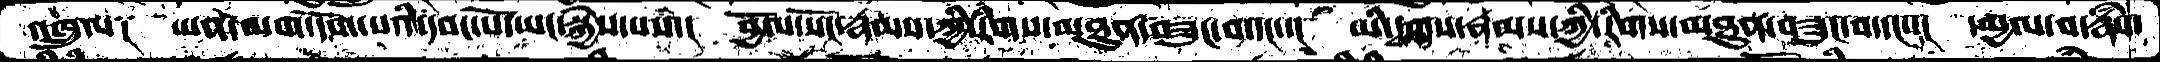འཁྲུལ༑  ཡན་ལག་དོག་པའི་དབང་པོ་ཡང་སྐྱེས་པས་།  བྱོལ་སོང་རྣམས་ཀྱི་རིགས་མཐུན་བཟུང་བ་དང་་་།  ཡི་དྭགས་རྣམས་ཀྱི་རིགས་མཐུན་བཟུང་བ་དང་་།  དམྱལ་བ་རྣཾས་
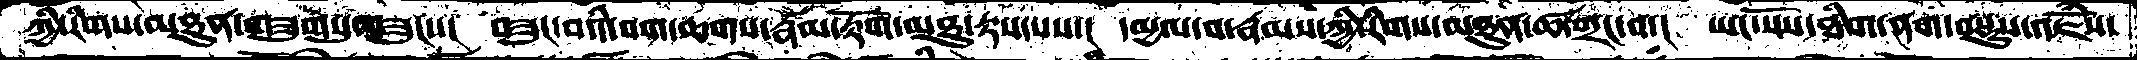ཀྱི་རིགས་མཐུན་གཟུགསུ་བཟུང་་།  བཟུང་བའི་བག་ཆགས་རྣམ་རྟོག་མཐུ་རྟས་པས་།  དམྱལ་བ་རྣམས་ཀྱི་རིགས་མཐུན་ཚ་གྲང་བ་།  ཡང་སོས་ཐིག་ནག་བསྡུས་འཇོཾས་
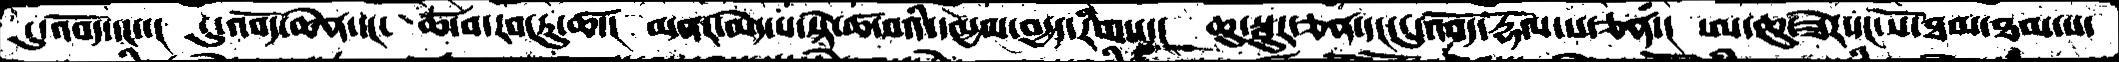ངུ་འབོད་དང་་།  ངུ་འབོད་ཆེན་དང་།  ཚ་བ་རབ་ཏུ་ཚ་།  མནར་མེད་པ་སྟེ་ཚ་བའི་དམྱལ་བདྱད་རིགས་།  ཆུ་སྦུར་ཅན་དང་ངུ་འབོད་རྡོལ་པ་ཅན་།  ཨ་ཆུ་ཟེར་དང་སོ་ཐམ་ཐམ་པ་
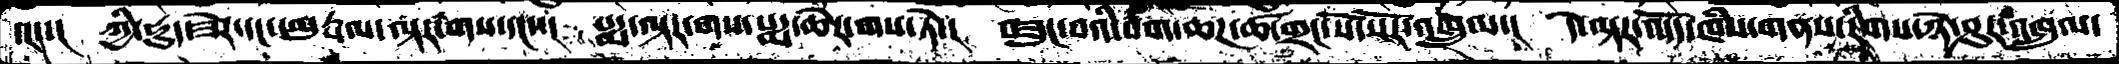དང་་།  ཀྱི་ཧུད་ཟེར་དང་ཨུཏྤལ་ལྟར་གས་དང་་།  པདྨ་ལྟར་གས་པདྨ་ཆེར་གས་ཏེ་།  བཟུང་བའི་བག་ཆཌ་ཚ་གྲང་སོ་སོར་འཁྲུལ་།  དེ་ལྟར་འདོད་ཁཾས་གནས་རིགས་ཉེ་ཤུར་འཁྲུལ་
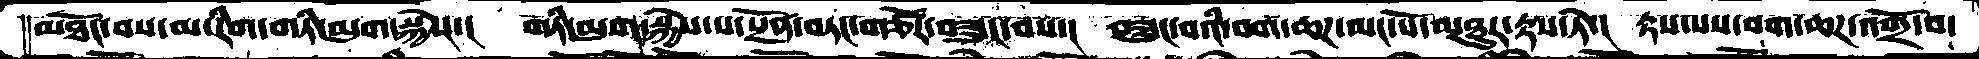མཐོང་བས་མ་རིག་གཏི་མུག་སྐྱེས་།  གཏི་མུག་སྐྱེས་པ་སྔོན་བཏང་གཙོར་བཟུང་བས་།  བཟུང་བའི་བག་ཆཌ་མང་པོ་མཐུར་རྟས་ཏེ་།  རྟས་པས་བག་ཆཌ་འགྲོ་བ་
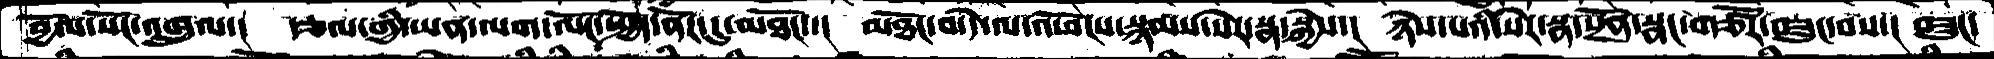བྱོལ་སོང་འཁྲུལ་།  རྩལ་གྱི་ཡན་ལག་ལོང་སྤྱོད་ནོར་དུ་མཐོང་་།  མཐོང་བ་དེ་ལ་འཕོངས་སྙམས་སེར་སྣ་སྐྱེས་།  ཉེས་པའི་སེར་སྣ་སྔོན་སྣང་གཙོར་བཟུང་བས་།  བཟུང་
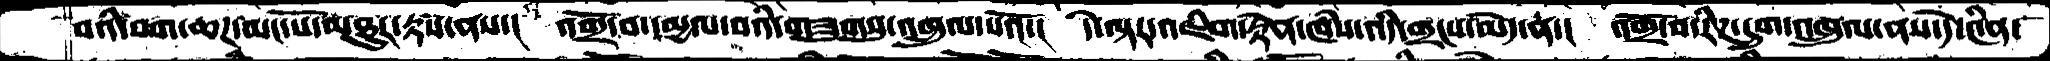བའི་བག་ཆཌ་མང་པོ་མཐུར་རྟས་ནས་།  འགྲོ་བ་དམྱལ་བའི་གཟུགསུ་འཁྲུལ་པའོ་།  དེ་ལྟར་འཇིག་རྟེན་ཁཾས་འདི་གྲངས་མེད་ན་།  འགྲོ་བ་རིཌ་དྲུག་འཁྲུལ་ནས་དེ་༤ིན་
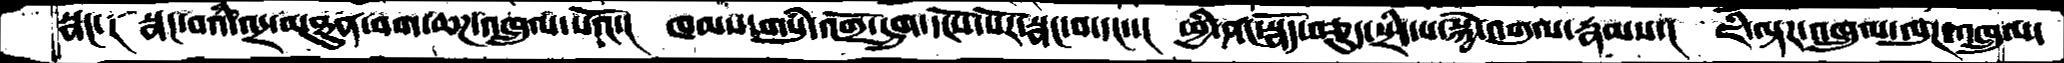སྣང་།  སྣང་བའི་འདྲ་མཐུན་བག་ཆཌ་འཁྲུལ་པའོ་།  ཁམས་གསུཾ་འགྲོ་དྲུག་དངོས་པོར་སྣང་བ་དང་་།  ཕྱི་ནང་སྣོད་བཅུད་སྲིད་པ་སྐྱེ་འགུལ་རྣམས་།  ཇི་ལྟར་འཁྲུལ་ལུཌ་འཁྲུལ་
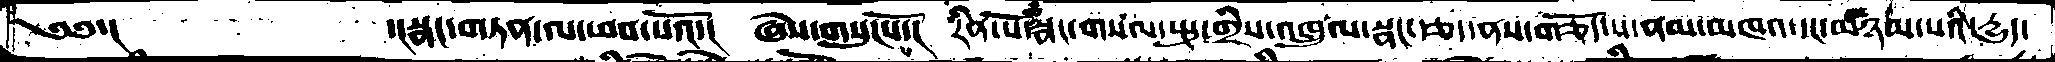༄༅་།        ་།སྣང་གཏན་ལ་ཕབ་པའོ་།  ཞེས་གསུངསོ་།  རིན་པོ་སྣང་གསལ་སྤུ་གྲིས་འཁྲུལ་སྣང་རྩད་ནས་གཅོད་པ་ནམ་མཁའ་དང་མཉམ་པའི་དྱུད་
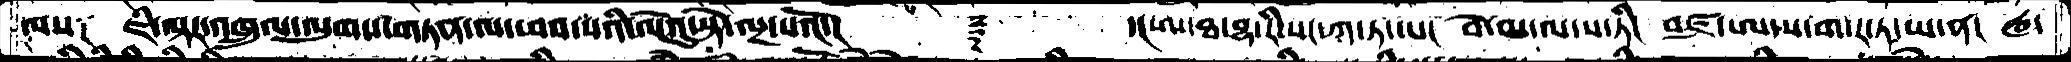པས༑  ཇི་ལྟར་འཁྲུལ་ལུགས་གཏན་ལ་ཕབ་པའི་ལེའུ་སྟེ་ལྔ་པའོ་།    ࿑      ་།ཨ་ཐ་བྷ་རི་སང་ཀ་ཏ་པ།  བེ་མ་ལ་པ་ཏཱི།  བཛྲ་ཨ་ས་ག་ར་ཏ་ཡ་ན།  ཝ་
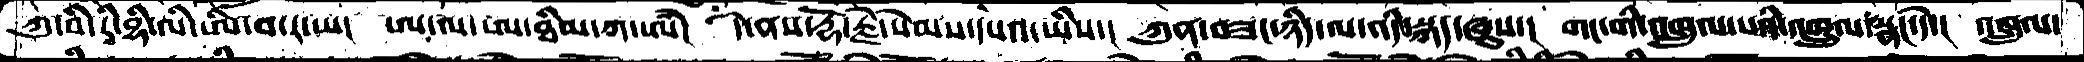ཀུ་བི་རི་བྷི་ལི་ཨི་བ་ར་ཡ།  ཨ་ལ་ཨ་ཐིམ་ཀ་ཨཾ།  དེ་ནས་རྡོ་རྗེ་སེམས་དཔའ་ཡིས་།  ཀུན་བཟང་ཉིད་ལ་འདི་སྐད་ཞུས་།  གང་གི་འཁྲུལ་པའི་འཁྲུལ་སྣང་དེ་།  འཁྲུལ་
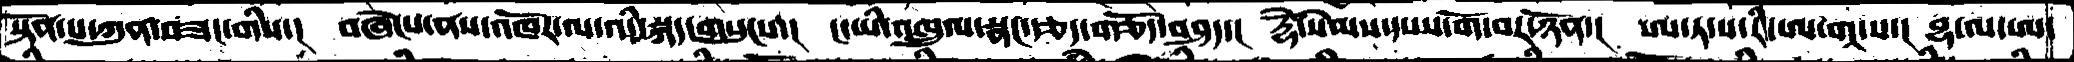སྟོན་པ་ཀུན་བཟང་གིས་།  བཞེངས་ནས་འཁོར་ལ་འདི་སྐད་གསུངས་།  ང་ཡི་འཁྲུལ་སྣང་རྩད་གཅོད་བཤད་།  རྡོེ་སེམས་དཔས་གོ་བར་ཉོན་།  ཨ་ཏ་པ་རི་ཨ་གཱ་ས་། བྷ་ལ་ཨ་
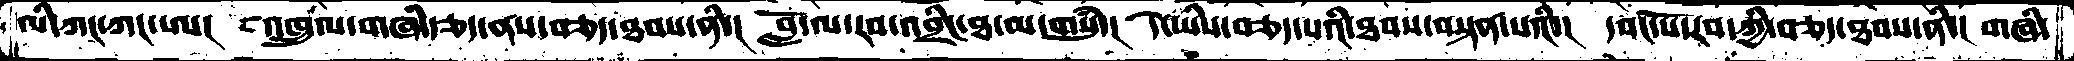ལི་ཀང་ཀང་ཨ་།  འཁྲུལ་གཞི་རྩད་ནས་བཅད་ཐབས་ནི་།  བློ་ལ་རབ་འབྲིང་ཐ་མ་གསུཾ་།  དེ་ཡིས་བཅད་པའི་ཐབས་བསྟན་པའི་།  དབང་པོ་རབ་ཀྱི་བཅད་ཐབས་ནི་།  གཞི་
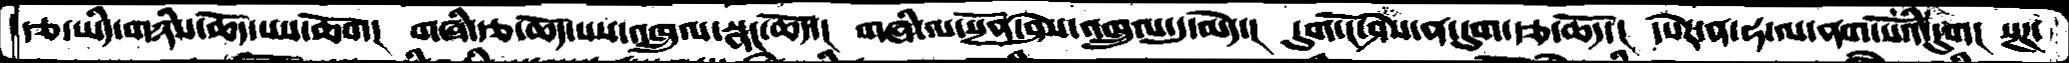རྩ་ཡིད་གཉིས་ཆོད་པས་ཆོག།  གཞི་རྩ་ཆོད་པས་འཁྲུལ་སྣང་ཆོད་།  གཞི་ལ་སྔོན་ཤེས་འཁྲུལ་དུ་མེད་།  དུག་ངོ་ཤེས་ན་དུག་རྩ་ཆོད་།  དཔེར་ན་ཧ་ལ་ནག་པོའི་དུག།  སྔཌ་
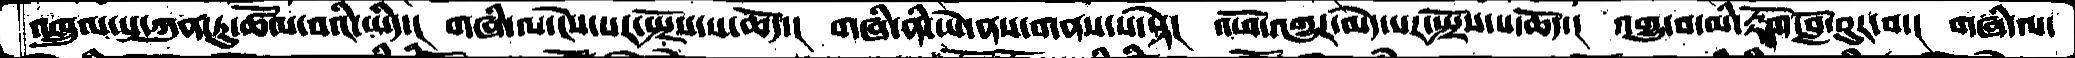འཁྲུལ་པ་ཀུན་ཏུ་ཚོལ་བའི་ཡིད་།   གཞི་ལ་ངེས་པར་སྤྲོས་པ་ཆོད་།  གཞི་ནི་ཡེ་ནས་གནས་པ་སྟེ་།  འཕོ་འགྱུར་མེད་པར་སྤྲོས་པ་ཆོད་།  འགྱུ་བ་མི་རྟོག་བློ་བུར་བ་།  གཞི་ལ་
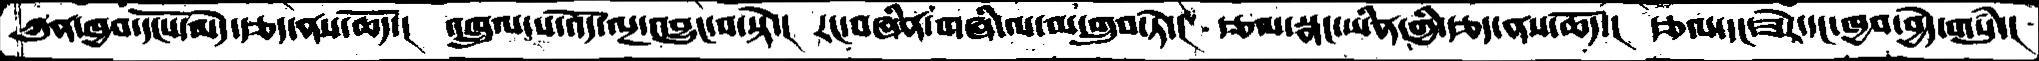ཀུན་ཁྱབ་དངོས་མེད་རྩད་ནས་ཆོད་།  འཁྲུལ་པ་འོད་ལྔ་འབྱུང་བ་སྟེ་།  རང་བཞིན་གཞི་ལ་མ་གྲུབ་ཏེ་།  རྩལ་སྣང་ཡིན་གྱི་རྩད་ནས་ཆོད་།  རྩལ་དང་ཟེར་དང་ཁྱབ་བྱེད་གསུཾ་།
